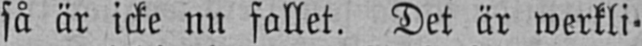så är icke nu fallet. Det är werkli-
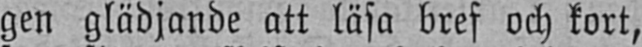gen glädjande att läsa bref och kort,
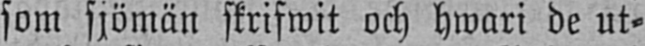som sjömän skrifwit och hwari de ut-
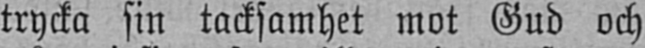trycka sin tacksamhet mot Gud och
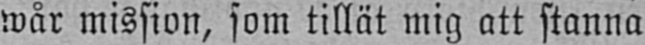wår mission, som tillät mig att stanna
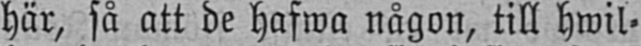här, så att de hafwa någon, till hwil-
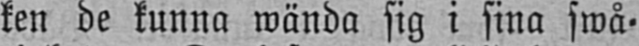ken de kunna wända sig i sina swå-
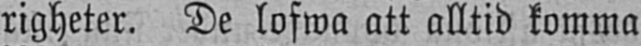righeter. De lofwa att alltid komma
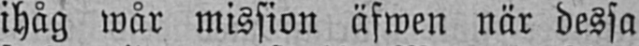ihåg wår mission äfwen när dessa
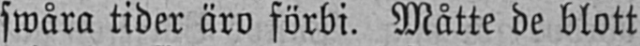swåra tider äro förbi. Måtte de blott
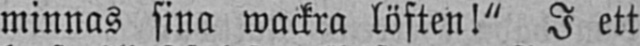minnas sina wackra löften!" I ett
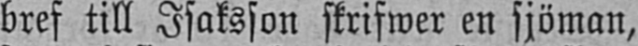bref till Isaksson skrifwer en sjöman,
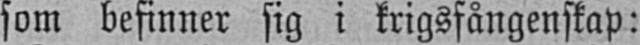som befinner sig i krigsfångenskap:
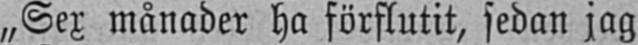„Sex månader ha förflutit, sedan jag
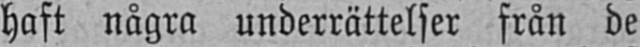haft några underrättelser från de
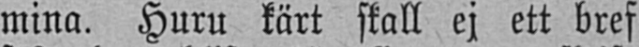mina. Huru kärt skall ej ett bref
